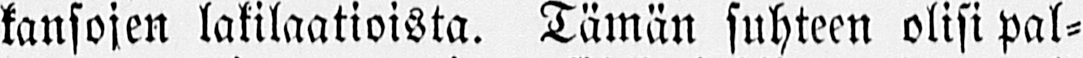kansojen lakilaatioista. Tämän suhteen olisi pal-
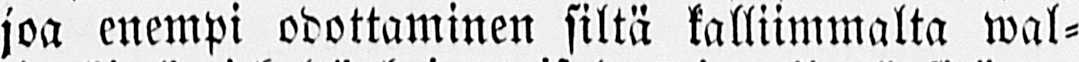joa enempi odottaminen siltä kalliimmalta wal-
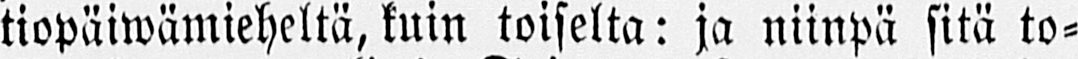tiopäiwämieheltä, kuin toiselta: ja niinpä sitä to-
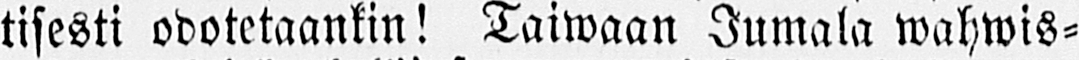tisesti odotetaankin! Taiwaan Jumala wahwis-
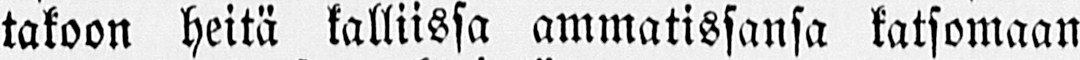takoon heitä kalliissa ammatissansa katsomaan
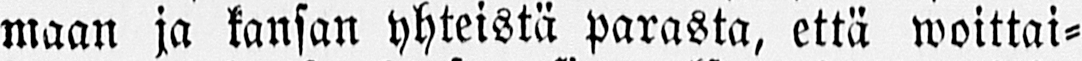maan ja kansan yhteistä parasta, että woittai-
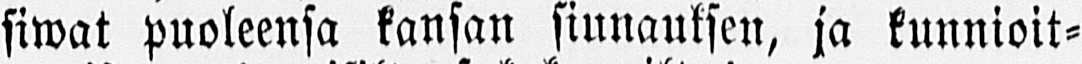siwat puoleensa kansan siunauksen, ja kunnioit-
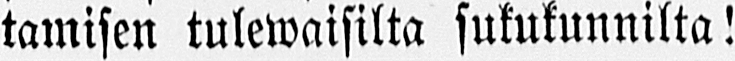tamisen tulewaisilta sukukunnilta!
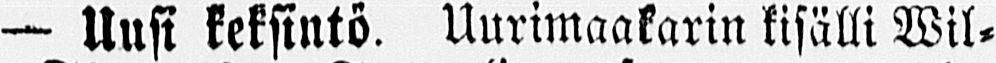— Uusi keksintö. Uurimaakarin kisälli Wil-
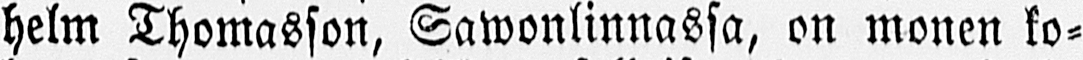helm Thomasson, Sawonlinnassa, on monen ko-
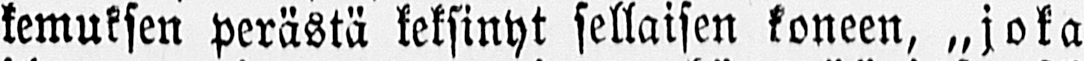kemuksen perästä keksinyt sellaisen koneen, „joka
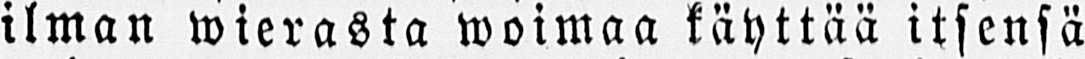ilman wierasta woimaa käyttää itsensä
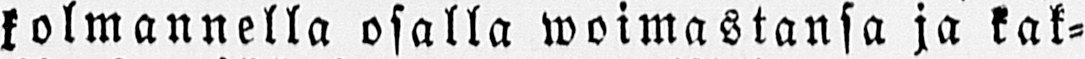kolmannella osalla woimastansa ja kak-
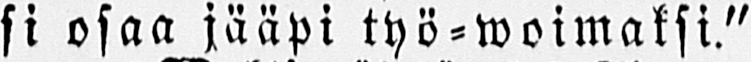si osaa jääpi työ-woimaksi."
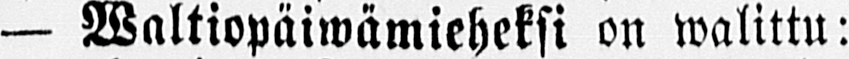— Waltiopäiwämieheksi on walittu:
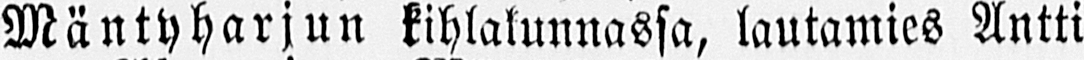Mäntyharjun kihlakunnassa, lautamies Antti
